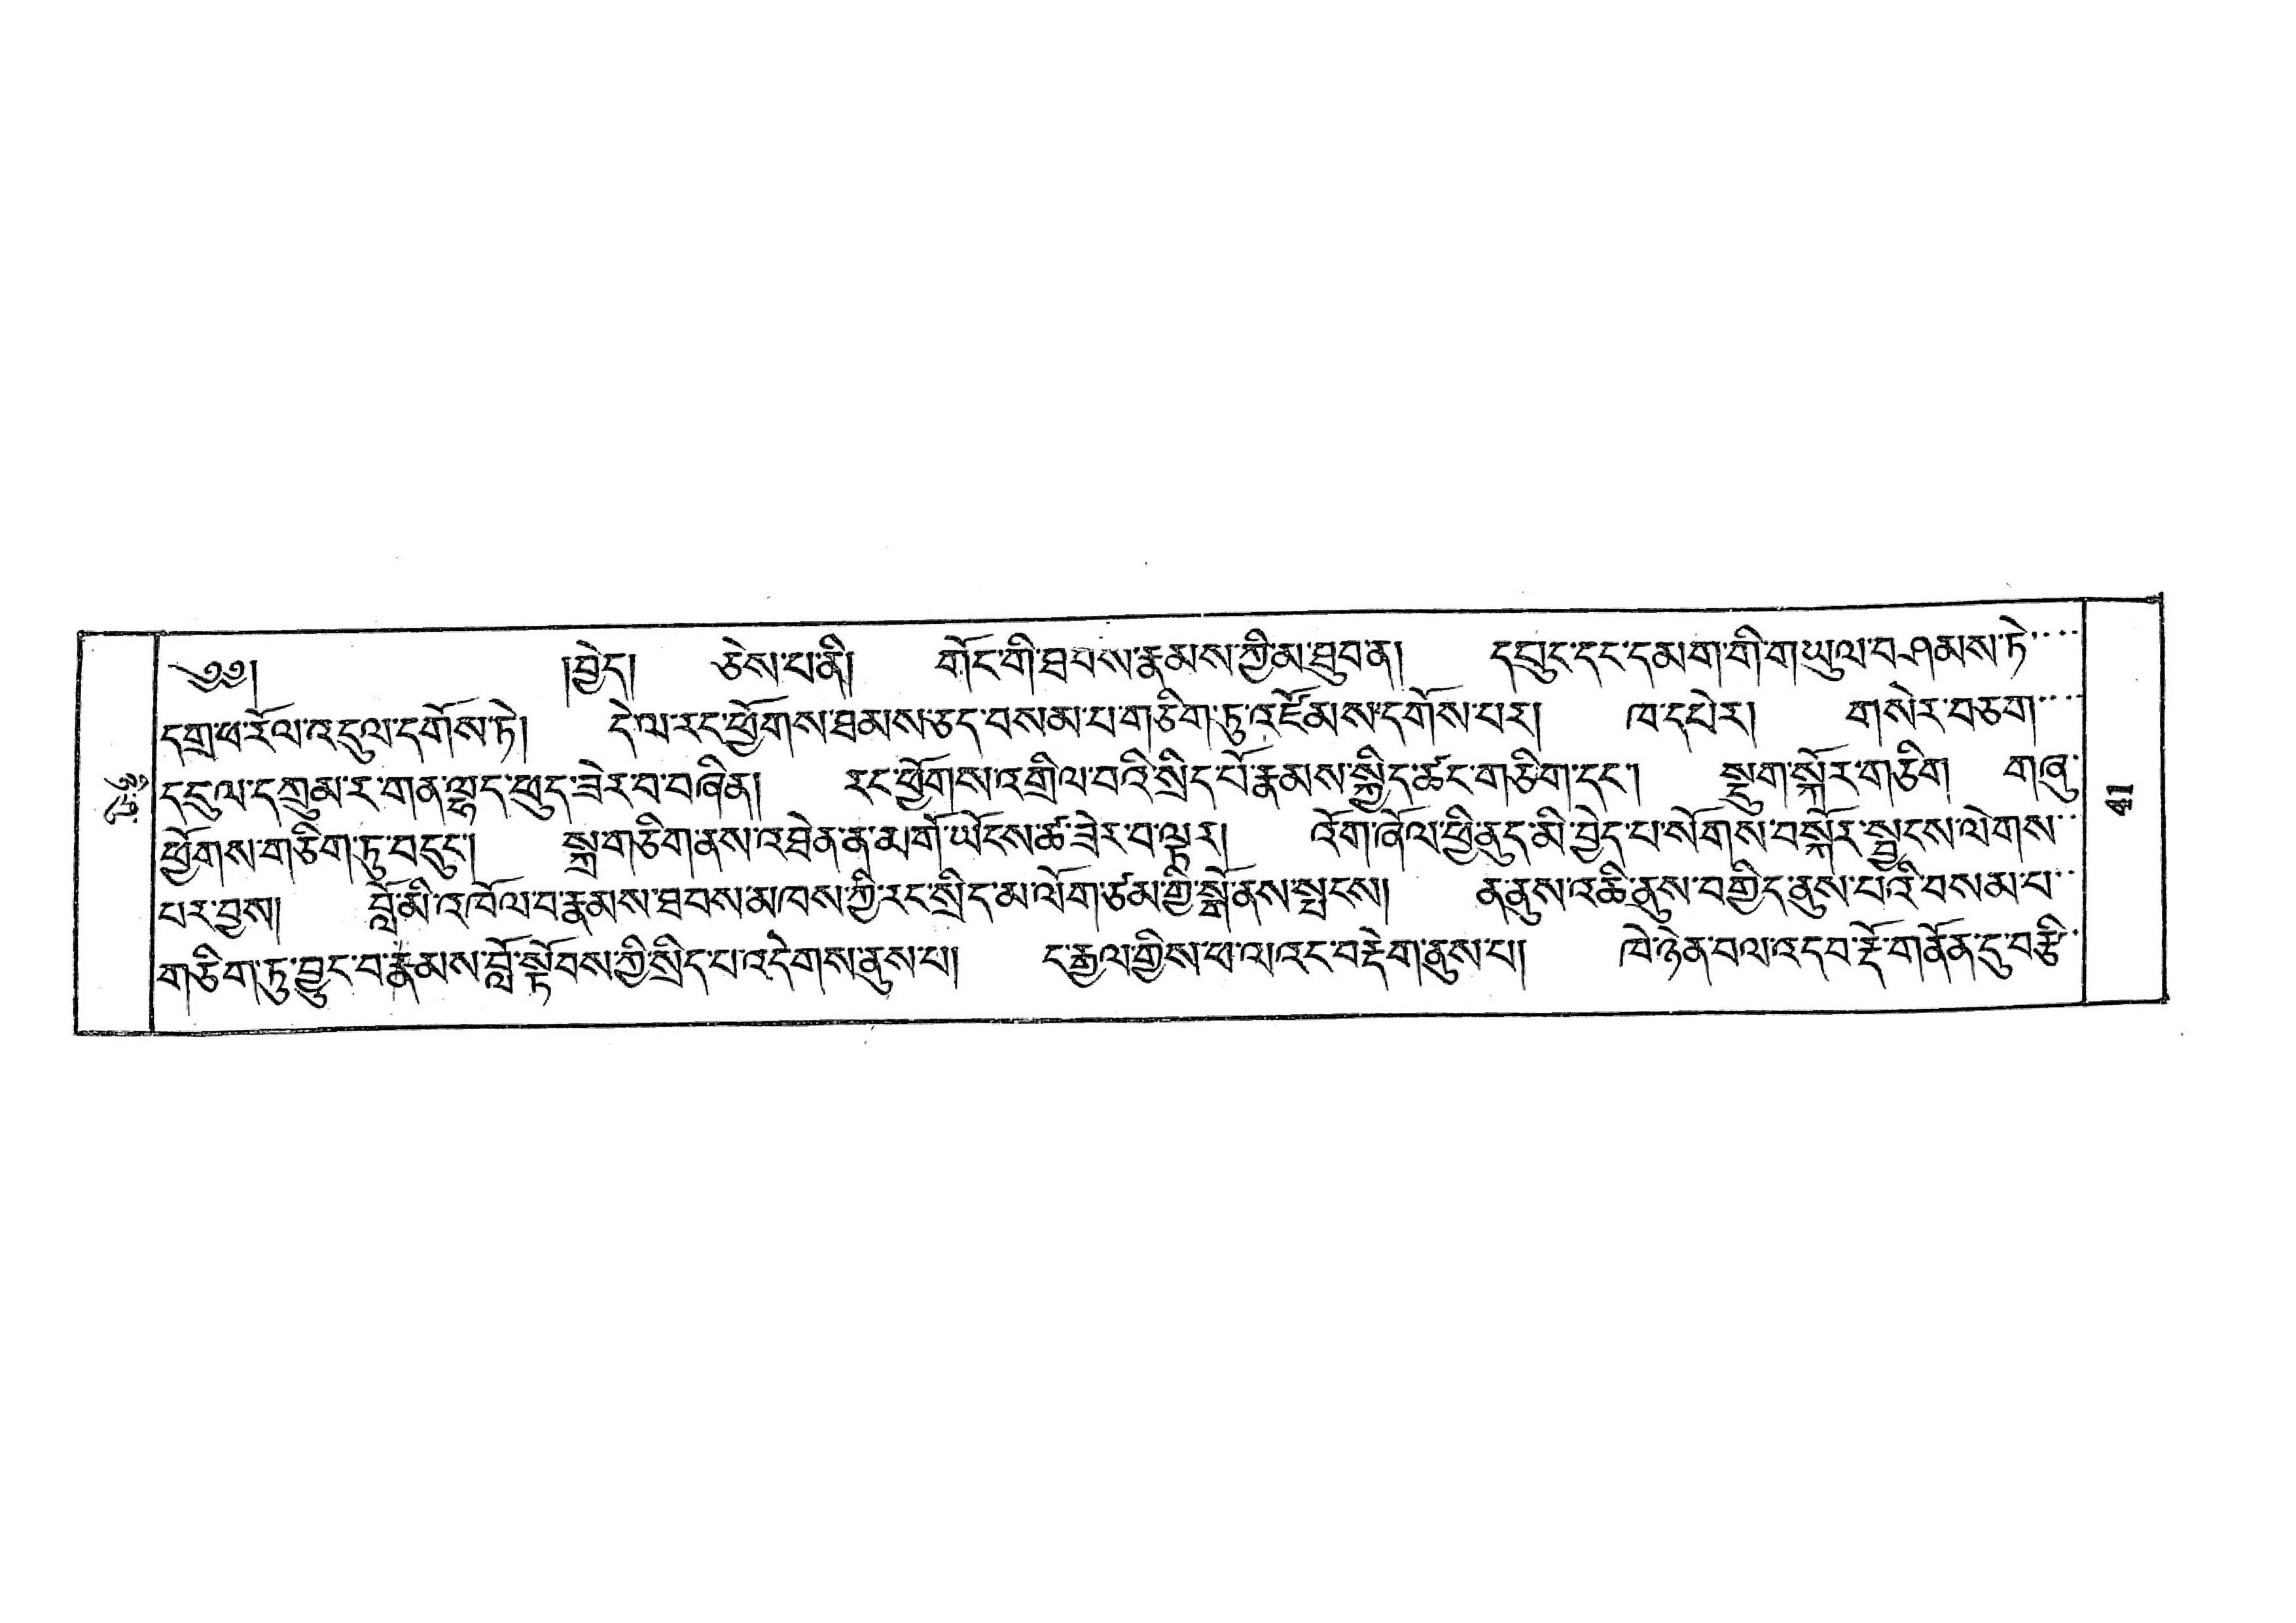ཉི་ཤུ་
༄༅། །བྱེད། ཅེས་པ་ནི། གོང་གི་ཐབས་རྣམས་ཀྱི་མ་ཐུབ་ན། དཔུང་དང་དམག་གི་གཡུལ་བཤམས་ཏེ་་་་
དགྲ་ཕ་རོལ་འདུལ་དགོས་ཏེ། དེ་ལ་རང་ཕྱོགས་ཐམས་ཅད་བསམ་པ་གཅིག་ཏུ་འཛོམས་དགོས་པར། ཁ་དཔེར། གསེར་བཅག་་་་
དངུལ་དཀྲུམ་ར་གན་ལྷད་ཕུད་ཟེར་བ་བཞིན། རང་ཕྱོགས་འགྲིལ་བའི་སྲིད་པོ་རྣམས་སྐྱིད་ཚང་གཅིག་དང་། སྡུག་སྐོར་གཅིག གཞུ་
ཕྱོགས་གཅིག་ཏུ་བདུང་། སྐྲ་གཅིག་ནས་འཐེན་ན་མགོ་ཡོངས་ཚ་ཟེར་བ་ལྟར། འོག་ཞོལ་ཕྱི་ནུད་མི་བྱེད་པ་སོགས་བསྐོར་སྦྱངས་ལེགས་་
པར་བྱས། བློ་མི་འཁོལ་བ་རྣམས་ཐབས་མཁས་ཀྱི་རང་སྲིད་མ་ལོག་ཙམ་གྱི་སྒོ་ནས་སྤངས། ན་ནུས་འཆི་ནུས་བགྱིད་ནུས་པོའི་བསམ་པ་་
གཅིག་ཏུ་བྱུང་བ་རྣམས་བློ་སྟོབས་ཀྱི་སྲིད་པ་འདེགས་ནུས་པ། ང་རྒྱལ་གྱིས་ཕ་ལའང་བརྡེག་ནུས་པ། ཁེ་ཉེན་བལ་འདབ་རྡོ་གནོན་དུ་བརྩི་
